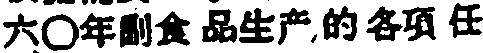六〇年副食品生产的各項任
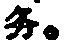务。
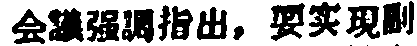会議强調指出，要实現副
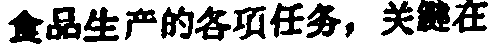食品生产的各項任务，关鍵在
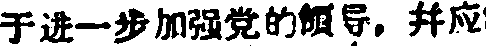于进一步加强党的領导，并应
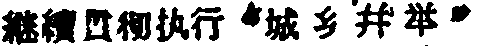継續貫彻執行“城乡并举”
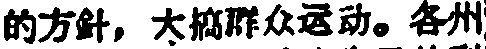的方針，大搞群众运动。各州
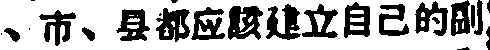市、县都应該建立自己的副
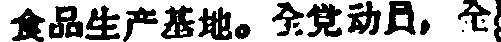食品生产基地。全党动員，全
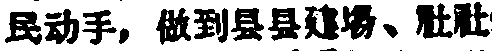民动手，做到县县建場、社社
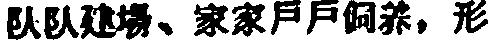队队建場、家家戶戶飼养，形
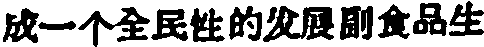成一个全民性的发展副食品生
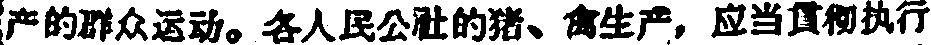产的群众运动。各人民公社的猪、禽生产，应当貫彻执行
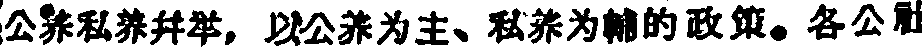公养私养并举，以公养为主、私养为輔的政策。各公社
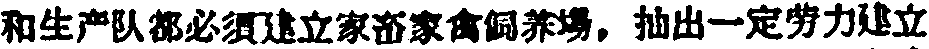和生产队都必須建立家畜家禽飼养場，抽出一定劳力建立
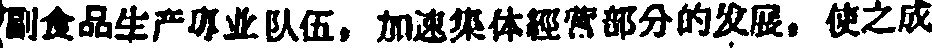副食品生产專业队伍，加速集体經管部分的发展，使之成
